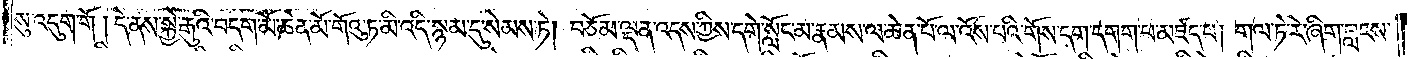སུ་འདུག་གོ། དེ་ནས་སྐྱེ་རྒུའི་བདག་མོ་ཆེན་མོ་གོའུ་ཏ་མི་འདི་སྙམ་དུ་སེམས་ཏེ། བཅོམ་ལྡན་འདས་ཀྱིས་དགེ་སློང་མ་རྣམས་ལ་ཆེན་པོ་ལ་འོས་པའི་གོས་དག་དགག་པ་མཛད་པ། གལ་ཏེ་རེ་ཞིག་བླངས་
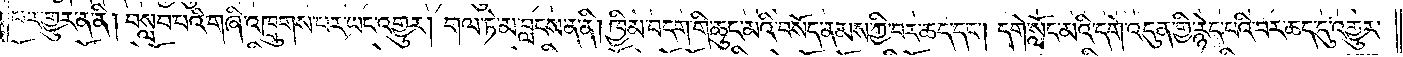པར་གྱུར་ན་ནི། བསླབ་པའི་གཞི་འཁྲུགས་པར་ཡང་འགྱུར། གལ་ཏེ་མ་བླངས་ན་ནི། ཁྱིམ་བདག་གི་ཆུང་མའི་བསོད་ནམས་ཀྱི་བར་ཆད་དང༌། དགེ་སློང་མའི་དགེ་འདུན་གྱི་རྙེད་པའི་བར་ཆད་དུ་འགྱུར་
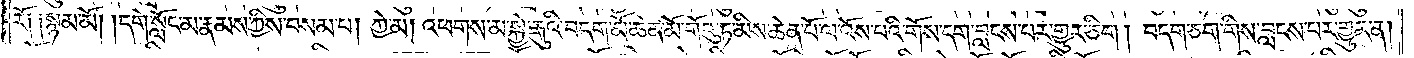རོ༑ ༑སྙམ་མོ། །དགེ་སློང་མ་རྣམས་ཀྱིས་བསམ་པ། ཀྱེ་མ། འཕགས་མ་སྐྱེ་རྒུའི་བདག་མོ་ཆེན་མོ་གོའུ་ཏ་མིས་ཆེན་པོ་ལ་འོས་པའི་གོས་དག་བླངས་པར་གྱུར་ཅིག །བདག་ཅག་གིས་བླངས་པར་གྱུར་ན།
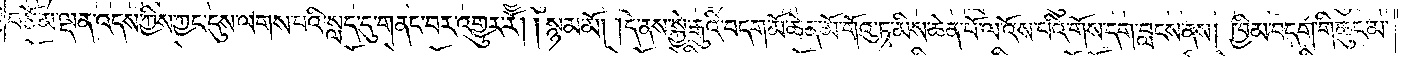བཅོམ་ལྡན་འདས་ཀྱིས་ཀྱང་དུས་ལགས་པའི་སླད་དུ་གནང་བར་འགྱུར་རོ། །སྙམ་མོ། །དེ་ནས་སྐྱེ་རྒུའི་བདག་མོ་ཆེན་མོ་གོའུ་ཏ་མིས་ཆེན་པོ་ལ་འོས་པའི་གོས་དག་བླངས་ནས། ཁྱིམ་བདག་གི་ཆུང་མ་
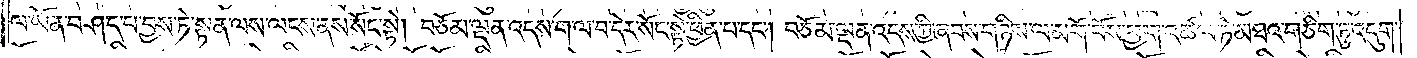ལ་ཡོན་བཤད་པ་བྱས་ཏེ་སྟན་ལས་ལངས་ནས་སོང་སྟེ། བཅོམ་ལྡན་འདས་ག་ལ་བ་དེར་སོང་སྟེ་ཕྱིན་པ་དང༌། བཅོམ་ལྡན་འདས་ཀྱི་ཞབས་གཉིས་ལ་མགོ་བོས་ཕྱག་འཚལ་ཏེ་མཐའ་གཅིག་ཏུ་འདུག་
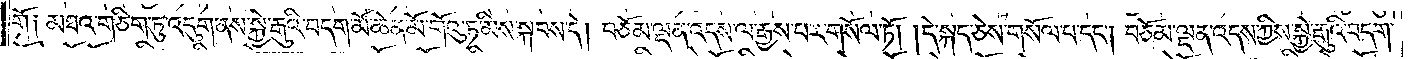གོ ༑མཐའ་གཅིག་ཏུ་འདུག་ནས་སྐྱེ་རྒུའི་བདག་མོ་ཆེན་མོ་གོའུ་ཏ་མིས་སྐབས་དེ། བཅོམ་ལྡན་འདས་ལ་རྒྱས་པར་གསོལ་ཏོ། །དེ་སྐད་ཅེས་གསོལ་པ་དང༌། བཅོམ་ལྡན་འདས་ཀྱིས་སྐྱེ་རྒུའི་བདག་
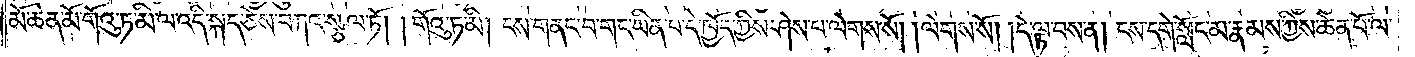མོ་ཆེན་མོ་གོའུ་ཏ་མི་ལ་འདི་སྐད་ཅེས་བཀའ་སྩལ་ཏོ། །གོའུ་ཏ་མི། ངས་གནང་བ་གང་ཡིན་པ་དེ་ཁྱོད་ཀྱིས་ཤེས་པ་ལེགས་སོ། །ལེགས་སོ། དེ་ལྟ་བས་ན། ངས་དགེ་སློང་མ་རྣམས་ཀྱིས་ཆེན་པོ་ལ་
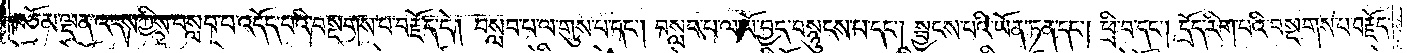བཅོམ་ལྡན་འདས་ཀྱིས་བསླབ་པ་འདོད་པའི་བསྔགས་པ་བརྗོད་དེ། བསླབ་པ་ལ་གུས་པ་དང༌། བསླབ་པ་ལ་ཡོ་བྱད་བསྙུངས་པ་དང༌། སྦྱངས་པའི་ཡོན་ཏན་དང༌། ཕྲི་བ་དང༌། དྲོད་རིག་པའི་བསྔགས་པ་བརྗོད་
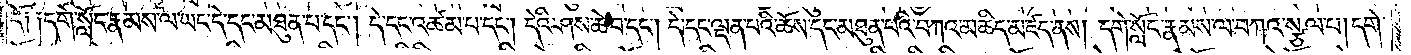དོ༑ ༑དགེ་སློང་རྣམས་ལ་ཡང་དེ་དང་མཐུན་པ་དང༌། དེ་དང་འཚམ་པ་དང༌། དེའི་ཤས་ཆེ་བ་དང༌། དེ་དང་ལྡན་པའི་ཆོས་དང་མཐུན་པའི་བཀའ་མཆིད་མཛད་ནས། དགེ་སློང་རྣམས་ལ་བཀའ་སྩལ་པ། དགེ་
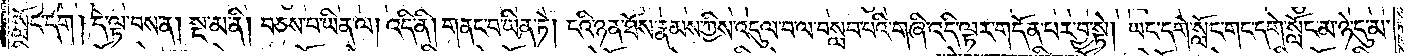སློང་དག །དེ་ལྟ་བས་ན། སྔ་མ་ནི། བཅས་པ་ཡིན་ལ། འདི་ནི། གནང་བ་ཡིན་ཏེ། ངའི་ཉན་ཐོས་རྣམས་ཀྱིས་འདུལ་བ་ལ་བསླབ་པའི་གཞི་འདི་ལྟར་གདོན་པར་བྱ་སྟེ། ཡང་དགེ་སློང་གང་དགེ་སློང་མ་ཉེ་དུ་མ་
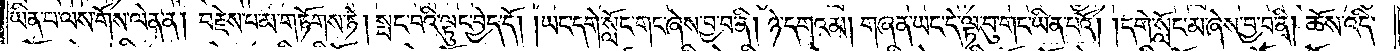ཡིན་པ་ལས་གོས་ལེན་ན། བརྗེས་པ་མ་གཏོགས་ཏེ། སྤང་པའི་ལྟུང་བྱེད་དོ། །ཡང་དགེ་སློང་གང་ཞེས་བྱ་བ་ནི། ཉེ་དགའམ། གཞན་ཡང་དེ་ལྟ་བུ་གང་ཡིན་པའོ། །དགེ་སློང་མ་ཞེས་བྱ་བ་ནི། ཆོས་འདི་
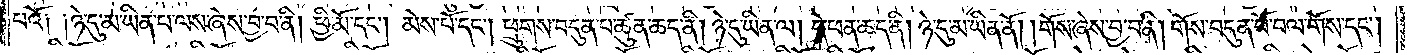པའོ༑ ༑ཉེ་དུ་མ་ཡིན་པ་ལས་ཞེས་བྱ་བ་ནི། ཕྱི་མོ་དང༌། མེས་པོ་དང༌། ཕྲུགས་བདུན་པ་ཚུན་ཆད་ནི། ཉེ་དུ་ཡིན་ལ། དེ་ཕན་ཆད་ནི། ཉེ་དུ་མ་ཡིན་ནོ། །གོས་ཞེས་བྱ་བ་ནི། གོས་བདུན་པོ་བལ་གོས་དང༌།
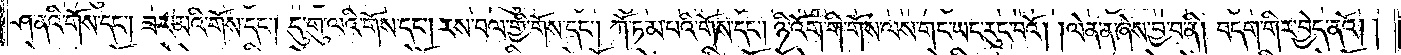ཤ་ནའི་གོས་དང༌། ཟར་མའི་གོས་དང༌། དུ་གུ་ལའི་གོས་དང༌། རས་བལ་གྱི་གོས་དང༌། ཀོ་ཏམ་པའི་གོས་དང༌། ཉི་འོག་གི་གོས་ལས་གང་ཡང་རུང་བའོ། །ལེན་ན་ཞེས་བྱ་བ་ནི། བདག་གིར་བྱེད་ནའོ། །
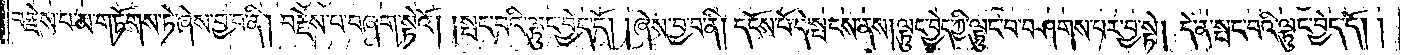བརྗེས་པ་མ་གཏོགས་ཏེ་ཞེས་བྱ་བ་ནི། བརྗེས་པ་བཞག་སྟེའོ། །སྤང་བའི་ལྟུང་བྱེད་དོ། །ཞེས་བྱ་བ་ནི། དངོས་པོ་དེ་སྤངས་ནས། ལྟུང་བྱེད་ཀྱི་ལྟུང་བ་བཤགས་པར་བྱ་སྟེ། དེ་ན་སྤང་བའི་ལྟུང་བྱེད་དོ། །
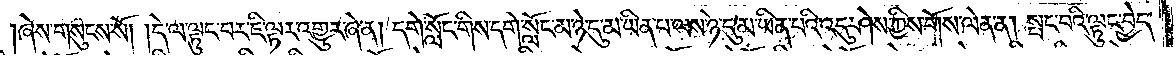ཞེས་གསུངས་སོ། །དེ་ལ་ལྟུང་བར་ཇི་ལྟར་འགྱུར་ཞེ་ན། དགེ་སློང་གིས་དགེ་སློང་མ་ཉེ་དུ་མ་ཡིན་པ་ལས་ཉེ་དུ་མ་ཡིན་པའི་འདུ་ཤེས་ཀྱིས་གོས་ལེན་ན། སྤང་བའི་ལྟུང་བྱེད་
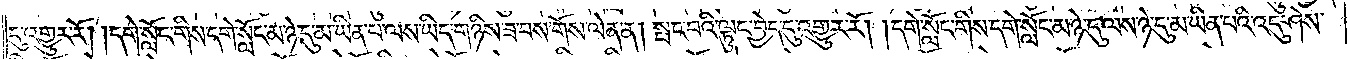དུ་འགྱུར་རོ། །དགེ་སློང་གིས་དགེ་སློང་མ་ཉེ་དུ་མ་ཡིན་པ་ལས་ཡིད་གཉིས་ཟ་བས་གོས་ལེན་ན། སྤང་བའི་ལྟུང་བྱེད་དུ་འགྱུར་རོ། །དགེ་སློང་གིས་དགེ་སློང་མ་ཉེ་དུ་ལས་ཉེ་དུ་མ་ཡིན་པའི་འདུ་ཤེས་
